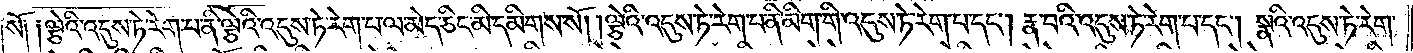སོ། །ལྕེའི་འདུས་ཏེ་རེག་པ་ནི་ལྕེའི་འདུས་ཏེ་རེག་པ་ལ་མེད་ཅིང་མི་དམིགས་སོ། །ལྕེའི་འདུས་ཏེ་རེག་པ་ནི་མིག་གི་འདུས་ཏེ་རེག་པ་དང༌། རྣ་བའི་འདུས་ཏེ་རེག་པ་དང༌། སྣའི་འདུས་ཏ་རེག་
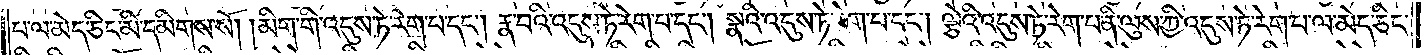པ་ལ་མེད་ཅིང་མི་དམིགས་སོ། །མིག་གི་འདུས་ཏེ་རེག་པ་དང༌། རྣ་བའི་འདུས་ཏེ་རེག་པ་དང༌། སྣའི་འདུས་ཏེ་རེག་པ་དང༌། ལྕེའི་འདུས་ཏེ་རེག་པ་ནི་ལུས་ཀྱི་འདུས་ཏེ་རེག་པ་ལ་མེད་ཅིང་
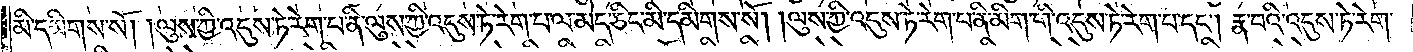མི་དམིགས་སོ། །ལུས་ཀྱི་འདུས་ཏེ་རེག་པ་ནི་ལུས་ཀྱི་འདུས་ཏེ་རེག་པ་ལ་མེད་ཅིང་མི་དམིགས་སོ། །ལུས་ཀྱི་འདུས་ཏེ་རེག་པ་ནི་མིག་གི་འདུས་ཏེ་རེག་པ་དང༌། རྣ་བའི་འདུས་ཏེ་རེག་
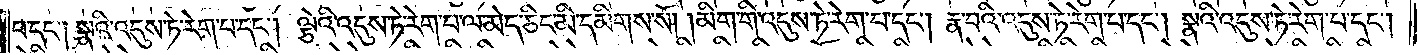པ་དང༌། སྣའི་འདུས་ཏེ་རེག་པ་དང༌། ལྕེའི་འདུས་ཏེ་རེག་པ་ལ་མེད་ཅིང་མི་དམིགས་སོ། །མིག་གི་འདུས་ཏེ་རེག་པ་དང༌། རྣ་བའི་འདུས་ཏེ་རེག་པ་དང༌། སྣའི་འདུས་ཏེ་རེག་པ་དང་
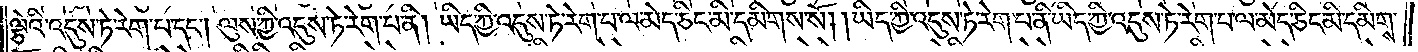ལྕེའི་འདུས་ཏེ་རེག་པ་དང༌། ལུས་ཀྱི་འདུས་ཏེ་རེག་པ་ནི། ཡིད་ཀྱི་འདུས་ཏེ་རེག་པ་ལ་མེད་ཅིང་མི་དམིགས་སོ། །ཡིད་ཀྱི་འདུས་ཏེ་རེག་པ་ནི་ཡིད་ཀྱི་འདུས་ཏེ་རེག་པ་ལ་མེད་ཅིང་མི་དམིགས་
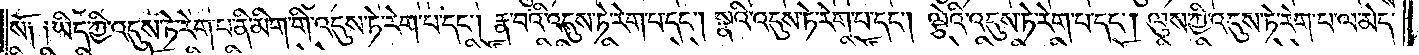སོ། །ཡིད་ཀྱི་འདུས་ཏེ་རེག་པ་ནི་མིག་གི་འདུས་ཏེ་རེག་པ་དང༌། རྣ་བའི་འདུས་ཏེ་རེག་པ་དང༌། སྣའི་འདུས་ཏེ་རེག་པ་དང༌། ལྕེའི་འདུས་ཏེ་རེག་པ་དང༌། ལུས་ཀྱི་འདུས་ཏེ་རེག་པ་ལ་མེད་
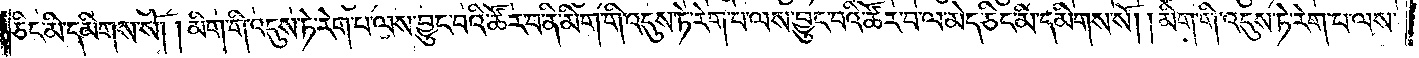ཅིང་མི་དམིགས་སོ། །མིག་གི་འདུས་ཏེ་རེག་པ་ལས་བྱུང་བའི་ཚོར་བ་ནི་མིག་གི་འདུས་ཏེ་རེག་པ་ལས་བྱུང་བའི་ཚོར་བ་ལ་མེད་ཅིང་མི་དམིགས་སོ། །མིག་གི་འདུས་ཏེ་རེག་པ་ལས་
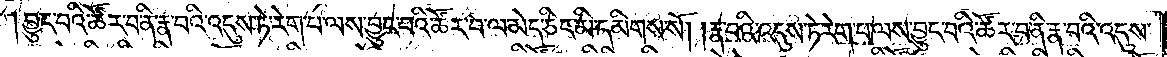བྱུང་བའི་ཚོར་བ་ནི་རྣ་བའི་འདུས་ཏེ་རེག་པ་ལས་བྱུང་བའི་ཚོར་བ་ལ་མེད་ཅིང་མི་དམིགས་སོ། །རྣ་བའི་འདུས་ཏེ་རེག་པ་ལས་བྱུང་བའི་ཚོར་བ་ནི་རྣ་བའི་འདུས་
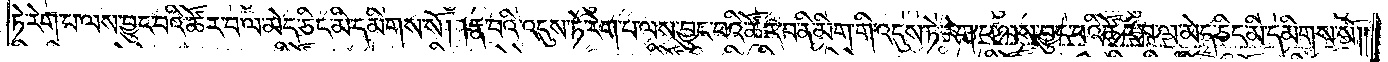ཏེ་རེག་པ་ལས་བྱུང་བའི་ཚོར་བ་ལ་མེད་ཅིང་མི་དམིགས་སོ། །རྣ་བའི་འདུས་ཏེ་རེག་པ་ལས་བྱུང་བའི་ཚོར་བ་ནི་མིག་གི་འདུས་ཏེ་རེག་པ་ལས་བྱུང་བའི་ཚོར་བ་ལ་མེད་ཅིང་མི་དམིགས་སོ། །
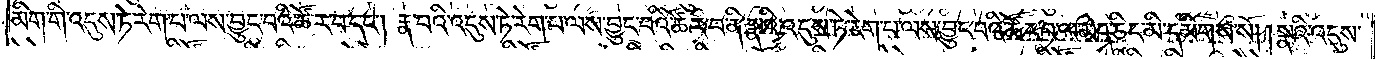མིག་གི་འདུས་ཏེ་རེག་པ་ལས་བྱུང་བའི་ཚོར་བ་དང༌། རྣ་བའི་འདུས་ཏེ་རེག་པ་ལས་བྱུང་བའི་ཚོར་བ་ནི་སྣའི་འདུས་ཏེ་རེག་པ་ལས་བྱུང་བའི་ཚོར་བ་ལ་མེད་ཅིང་མི་དམིགས་སོ། །སྣའི་འདུས་
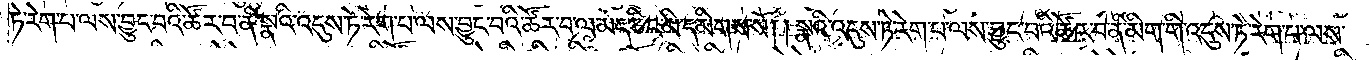ཏེ་རེག་པ་ལས་བྱུང་བའི་ཚོར་བ་ནི་སྣའི་འདུས་ཏེ་རེག་པ་ལས་བྱུང་བའི་ཚོར་བ་ལ་མེད་ཅིང་མི་དམིགས་སོ། །སྣའི་འདུས་ཏེ་རེག་པ་ལས་བྱུང་བའི་ཚོར་བ་ནི་མིག་གི་འདུས་ཏེ་རེག་པ་ལས་
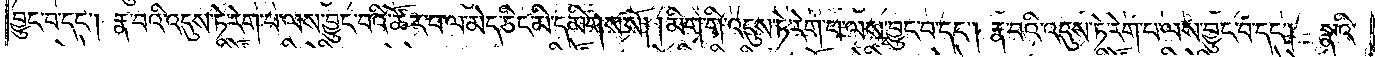བྱུང་བ་དང༌། རྣ་བའི་འདུས་ཏེ་རེག་པ་ལས་བྱུང་བའི་ཚོར་བ་ལ་མེད་ཅིང་མི་དམིགས་སོ། །མིག་གི་འདུས་ཏེ་རེག་པ་ལས་བྱུང་བ་དང༌། རྣ་བའི་འདུས་ཏེ་རེག་པ་ལས་བྱུང་བ་དང༌། སྣའི་
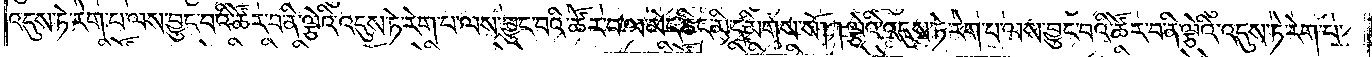འདུས་ཏེ་རེག་པ་ལས་བྱུང་བའི་ཚོར་བ་ནི་ལྕེའི་འདུས་ཏེ་རེག་པ་ལས་བྱུང་བའི་ཚོར་བ་ལ་མེད་ཅིང་མི་དམིགས་སོ། །ལྕེའི་འདུས་ཏེ་རེག་པ་ལས་བྱུང་བའི་ཚོར་བ་ནི་ལྕེའི་འདུས་ཏེ་རེག་པ་
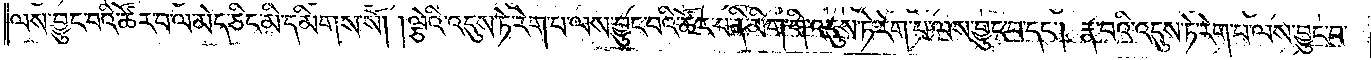ལས་བྱུང་བའི་ཚོར་བ་ལ་མེད་ཅིང་མི་དམིགས་སོ། །ལྕེའི་འདུས་ཏེ་རེག་པ་ལས་བྱུང་བའི་ཚོར་བ་ནི་མིག་གི་འདུས་ཏེ་རེག་པ་ལས་བྱུང་བ་དང༌། རྣ་བའི་འདུས་ཏེ་རེག་པ་ལས་བྱུང་བ་
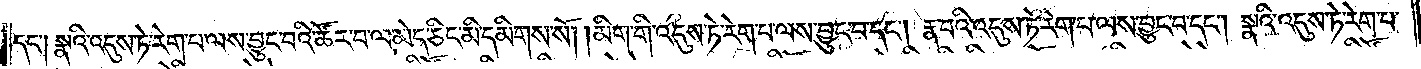དང༌། སྣའི་འདུས་ཏེ་རེག་པ་ལས་བྱུང་བའི་ཚོར་བ་ལ་མེད་ཅིང་མི་དམིགས་སོ། །མིག་གི་འདུས་ཏེ་རེག་པ་ལས་བྱུང་བ་དང༌། རྣ་བའི་འདུས་ཏེ་རེག་པ་ལས་བྱུང་བ་དང༌། སྣའི་འདུས་ཏེ་རེག་པ་
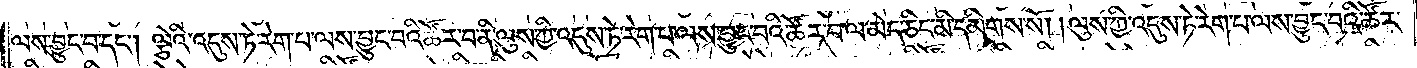ལས་བྱུང་བ་དང༌། ལྕེའི་འདུས་ཏེ་རེག་པ་ལས་བྱུང་བའི་ཚོར་བ་ནི་ལུས་ཀྱི་འདུས་ཏེ་རེག་པ་ལས་བྱུང་བའི་ཚོར་བ་ལ་མེད་ཅིང་མི་དམིགས་སོ། །ལུས་ཀྱི་འདུས་ཏེ་རེག་པ་ལས་བྱུང་བའི་ཚོར་
